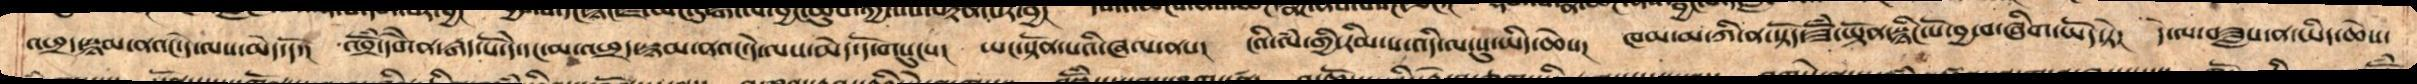འཕྲད་སྙམ་ནའང་དེ་ལས་མེད་དོ། འབྲོཾ་དགཻན་རྒད་པོ་དེ་དང་མ་འཕྲད་སྙམ་ནའང་དེ་ལས་མེད་དོ་གསུངས། ཡང་སྟོན་པའི་ཞལ་ནས། ངའི་ལཾ་གྱི་རིམ་པ་འདི་ལ་སུ་ཡིད་ཆེས། ཁམ་མ་ཀི་ན་སྟོང་ཟོཾ་ཡྟོན་སྙིང་པོ་བྱ་བ་ཞིག་ཡོད་ཏེ། དེ་ལ་བཟླས་ན་ཡིད་ཆེས་
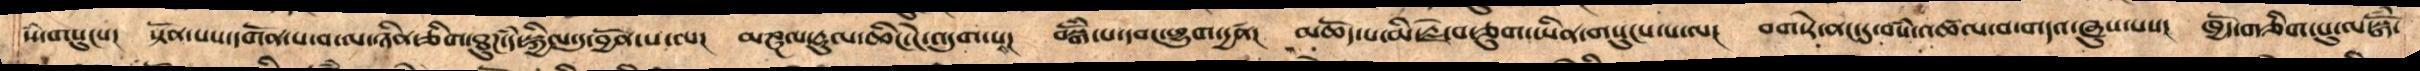སཾ་གསུངས།  སྟོན་པས་དགོན་པ་བ་ལ་ཉིན་གཅིག་ཐུཌ་དཾ་སྐྱིལ་དུ་བྱོན་པ་ལ།  མཎྜལ་རྡུལ་ཆིང་ངེ་འདུག་པས།  བསྒོཾ་པ་དབང་ཕྱུག་དྱཚན།  མཆོད་པ་མི་རྗེ་བ་ཅུག་ཡིན་གསུངས་པ་ལ།   བག་རེ་ནང་དུ་བསཾ་འཚལ་བ་གདའ་ཞུས་པས།   ཁྱོད་གཅིག་པུ་ལ་སྒོཾ་
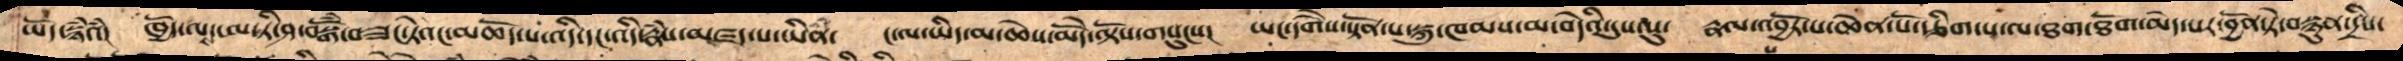ཡོད་སྙཾའཾ། ཁྱོད་ལས་ཨ་ཏི་ཤ་བསྒོཾ་བཟང་ཏེའང་མཆོད་པ་འདི་དང་འདི་རྣཾས་མཛད་པ་ཡིནཾ། ང་ལ་ཡིད་མ་ཆེས་མདོེ་ལྟོས་གསུངས།  ཡང་དགཻས་སྟོན་པ་སྐུ་ཁམས་མ་བདེའི་དུས་སུ།  རྣལ་འབྱོར་པ་ཆེན་པོ་རྩིག་པ་ལ་ཐག་ཐོག་མེད་པར་བྱོན་ཏེ་བསྙུན་དྲིས་
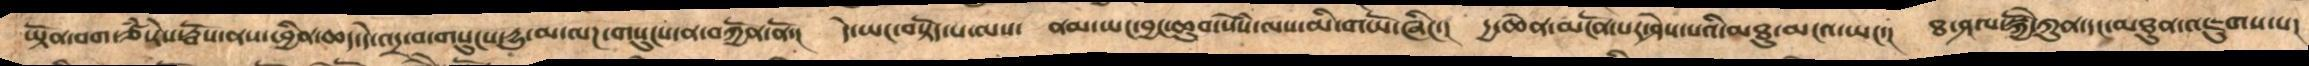ཡྟོན་བག་ཙཾ་རེས་རྦོས་ནས་ཕྱིན་ཆད་དེ་འདྲ་བ་གསུངས་དྱུ་མ་ལཌ་གསུངས་ན་བཀྱོན་ནོ་།   དེ་ཡང་བསྟོད་པ་ལས།  ནམ་ཡང་བྱང་ཆུབ་སེཾས་ལས་མི་གཡོ་ཞིང་།  དྱ་ཆེན་མངོན་པར་ཤེས་པའི་མཐུ་མངའ་ཡང་།  ཐ་ཤལ་སྐྱོེ་ཀུན་དང་མཐུན་འཇུགས་པ།
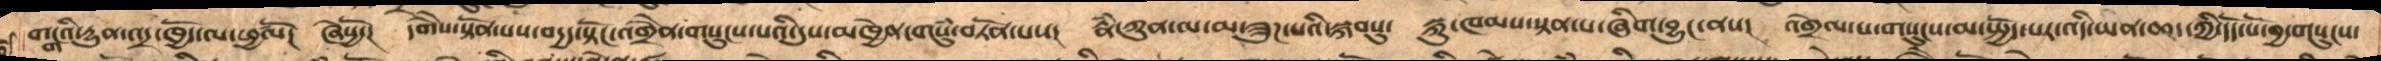གངྒའི་དྱུན་འདྲ་ཁྱོད་ལ་ཕྱཚལོ།  ཞེསྱོ།  དགཻས་སྟོན་པས་བདྱད་སྟོང་འགྲཻན་གསུངས་པའི་དུས་སུ་མཁྱེན་གསུཾ་བཏོན་པས།  རྣཾ་ཀུན་ལ་མ་ཟུཌ་པའི་སྐབསུ།   སྐུ་ཁམས་སྟན་པ་ཞིག་བྱུང་ནས།  འགྲེལ་པ་གསུངས་མ་སྤྱོད་པར་འདི་ཡན་ཆད་ཀྱི་དོད་པོ་བྱ་གསུངས་
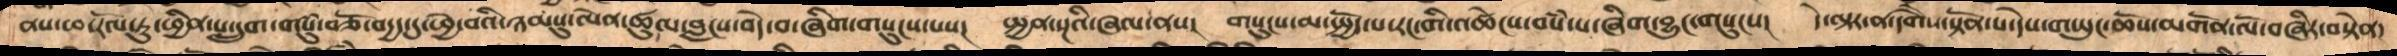ནས་ཕ་རོལ་ཏུ་ཕྱིན་པ་དྲུག་གསུཾ་བཅོ་བདྱད་དུ་ཕྱེ་བའི་ཉམསུ་ལེན་ཚུལ་བླངས་བདེ་བ་ཞིག་གསུངས་པས།   སྤྱན་ལྔའི་ཞལ་ནས།   གསུངས་མ་སྤྱོད་པ་རང་གི་འཚེངས་བསཾ་པ་ཞིག་བྱུང་གསུངས།   དེ་ལྟར་ན་དགཻས་སྟོན་པ་དེས་གཡུང་ཆོས་མགོན་ལོ་བཞིར་བསྟེན།
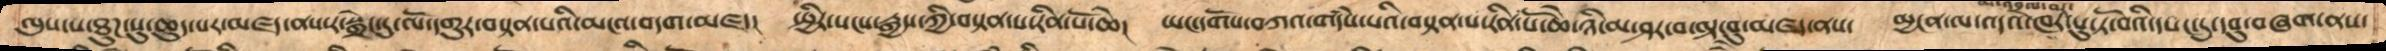ལུས་པ་ཐུཌ་སུ་ཆུད་པར་མཛད་ནས་ར་སྒྲེང་དུ་ལོ་དགུར་བསྟན་པའི་མངའ་བདག་མཛད་དེ། སྤྱིར་སངས་རྒྱས་ཀྱི་བསྟན་པ་རིན་པོ་ཆེ། ཡང་དགོས་བཀའ་གདཾས་པའི་བསྟན་པ་རིན་པོ་ཆེ་ཉི་མ་ཤར་བ་ལྟ་བུ་མཛད་ནས། མྱངན་ལས་འདའ་ཁར་པུ་ཏོ་བའི་པང་དུ་དབུ་བཞག་ནས་
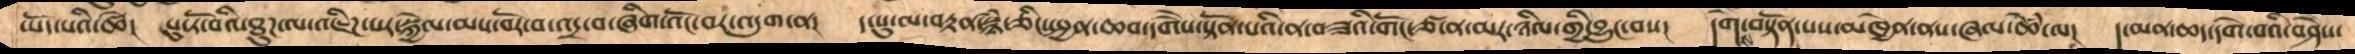ཡོད་པའི་ཚེ། པུ་ཏོ་བའི་ཐུཌ་ལ་འཇིཌ་སར་སྐྱེལ་མས་བོར་བ་འདྲ་བ་ཞིག་འོང་བར་འདུག་ན། ད་སུ་ལ་བརྟན་སྙཾ་ཅིང་སྤྱན་ཆབ་དགཻས་སྟོན་པའི་ན་བཟའི་གོང་ཙ་ན་མར་ཉིལ་གྱི་བྱུང་བས། དགཻས་སྟོན་པས་མཁྱེན་ནས་ཞལ་ཆེཾ་ལ། ད་མན་ཆད་དགེ་བའི་བཤེས་
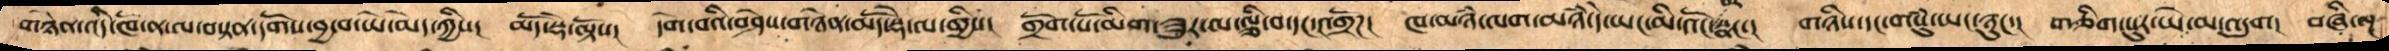གཉེན་འདི་ཁོ་ན་ལ་བསྟན་དགོས་བྱ་བ་ཡེ་མེད་ཀྱིས།   མདོ་སྡེ་ལྟོས།   དགེ་བའི་བཤེས་གཉེན་མདོ་སྡེ་ལ་གྱིས།   གྲོག་པོ་མིག་ཟུར་ལ་ལྕི་བ་དང་འགྲོཌ།   ཁ་མཉཾ་ལག་མཉཾ་དེ་ཡང་མི་འོང་པ་སྣང་།   གཉིས་དང་གསུཾ་ཡང་ཉུང་།  གཅིག་པུར་ཡེ་མ་འདུག།  བཞི་ལྔ
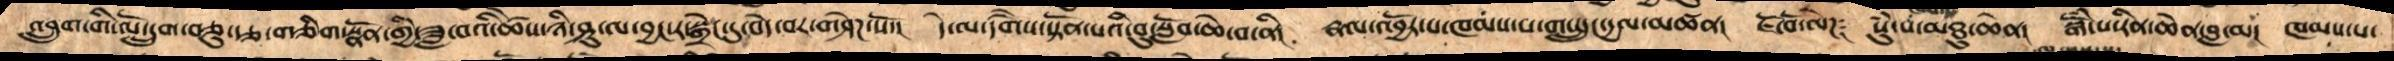འབྲུག་གི་ལོ་དྲུག་བཅུ་རྩ་གཅིག་སྣོན་གྱི་ཟླ་བའི་ཚེས་ཉི་ཤུ་ལ་བྱང་ར་སྒྲེང་དུ་བདེ་བར་གཤེཌ་སོ་།    དེ་ལ་དགཻས་སྟོན་པའི་བུ་སློབ་ཆེ་བ་ནི།   རྣལ་འབྱོར་པ་ཁམས་པ་གཡྲུང་དྱལ་མཚན།   ཇོ་བོ་ལེཌ༑   སུཾ་པ་མཐུ་ཆེན།   སྒོཾ་པ་རིན་ཆེན་བླ་མ།  ཁམས་པ་
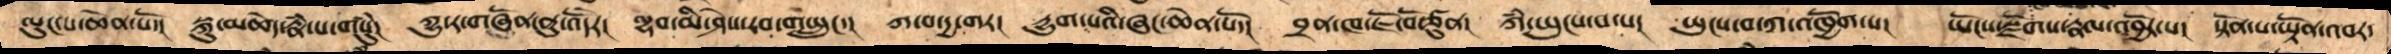ལུང་པ་ཆེན་པོ་།    སྐུ་མཆེད་རྣཾ་པ་གསུཾ།    ཀྱུ་ར་གཞོན་ནུ་འོདེར།   ལྷབ་མི་ཤེས་རབ་གཡྲུང་།   ཀ་བ་དྱ་གར།    དྱུག་པའི་ཞང་ཆེན་པོ་།    བྲན་ཁ་ཇོ་བོ་ཙུན།    ཀཾ་ཡུངས་པ་པ།    ཡུངས་བ་ཀ་འཁྱོག་པ།    ཡོངས་སྫོགས་རྣལ་འབྱོར་པ།   སྟོན་པ་ཡྟོན་འབར་
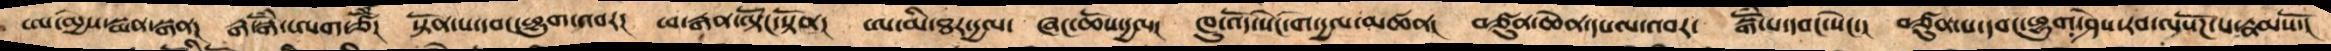ཨ་མྱེས་སྨན་སྒན།   རྒ་སྒོཾ་ཨག་ཙོཾ།   སྟོན་པ་དབང་ཕྱུག་འབར།   ཕ་རྒན་ལྟོང་སྟོན།   ཨ་མི་ཐར་དྱལ།   ཞང་ཆོས་དྱལ།   ཁུ་འོད་སེང་གེ་དྱལ་མཚན།   བཙུན་ཆེན་དཔལ་འབར།   སྒོཾ་པ་དབང་སེང་།   བཙུན་པ་དབང་ཕྱུག་ཤེས་རབ་ལསོཌ་པ་རྣམསོ་།
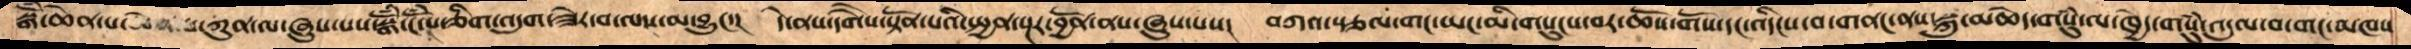སྒོཾ་ཆེན་པ་ཀུན་ལ་ཞུས་པས་སྒོཾ་ངོཾ་པ་ཅིག་འདུག་ཟེར་བ་ལས་མ་བྱུང་།   དེ་ནས་དགཻས་སྟོན་པའི་སྤྱན་སྔར་བྱོན་ནས་ཞུས་པས།   བཀའ་སྩལ་གང་ཡང་མི་གསུངས་བར་ཆོས་གོས་དང་འདིངས་བ་གནང་ནས་སྐུ་མཆེད་གསུཾ་ལ་ཁྱེད་གསུཾ་འདུལ་བ་གང་མཁས་
